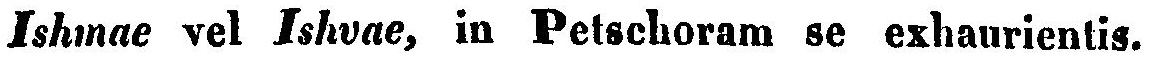Ishmae vel Ishvae, in Petschoram se exhaurientis.
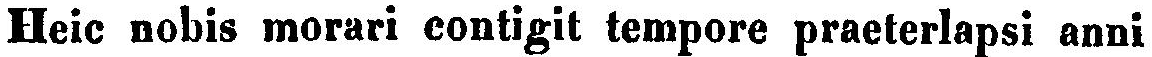Heic nobis morari contigit tempore praeterlapsi anni
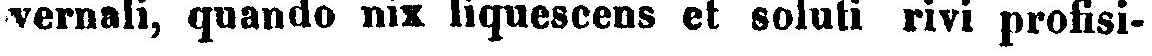vernali, quando nix liquescens et soluti rivi profisi-
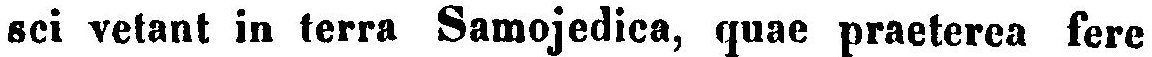sei vetant in terra Samojedica, quae praeterea fere
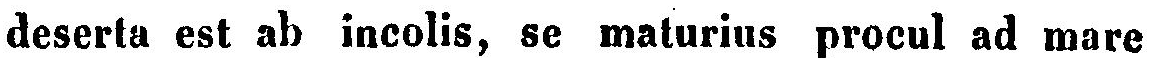deserta est ab incolis, se maturius procul ad mare
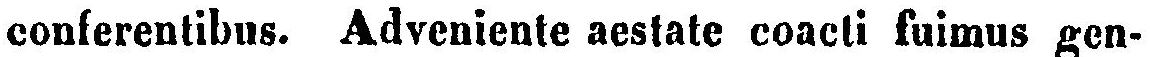conferentibus. Adveniente aestate coacti fuimus gen-
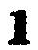1
